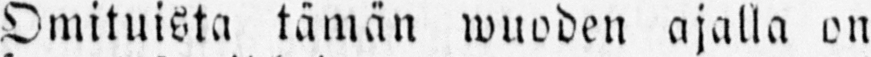Omituista tämän wuoden ajalla on
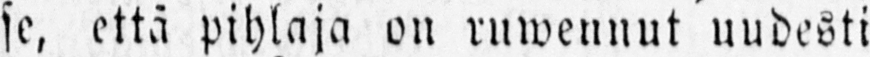se, että pihlaja on ruwennut uudesti
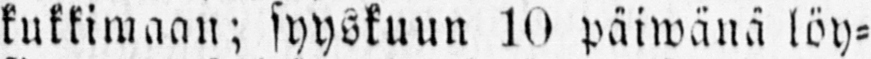kukkimaan; syyskuun 10 päiwänä löy-
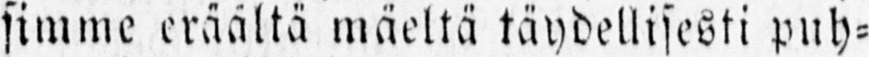simme eräältä mäeltä täydellisesti puh-
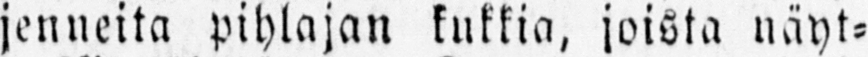jenneita pihlajan kukkia, joista näyt-
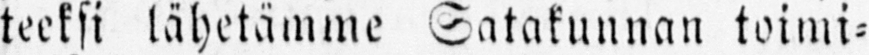teeksi lähetämme Satakunnan toimi-
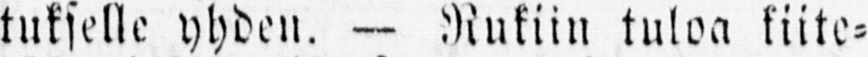tukselle yhden. — Rukiin tuloa kiite-
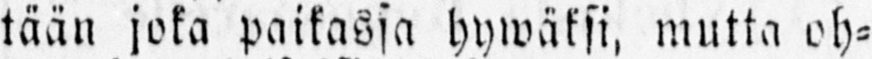tään joka paikassa hywäksi, mutta oh-
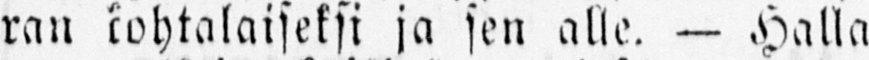ran kohtalaiseksi ja sen alle. — Halla
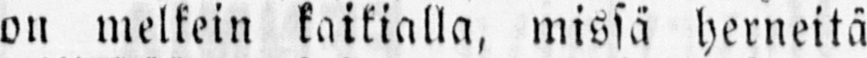on melkein kaikialla, missä herneitä
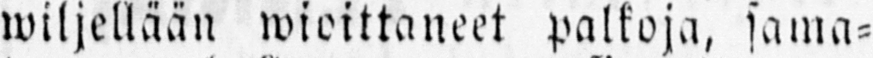wiljellään wioittaneet palkoja, sama-
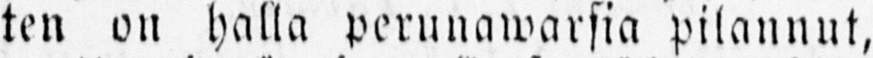ten on halla perunawarsia pilannut,
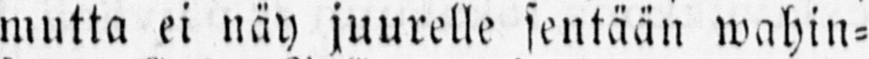mutta ei näy juurelle sentään wahin-
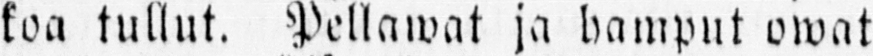koa tullut. Pellawat ja hamput owat
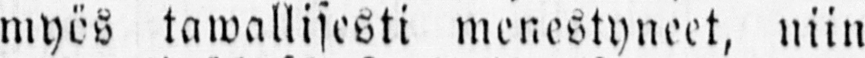myös tawallisesti menestyneet, niin
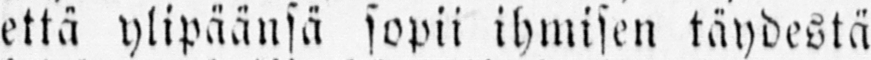että ylipäänsä sopii ihmisen täydestä
